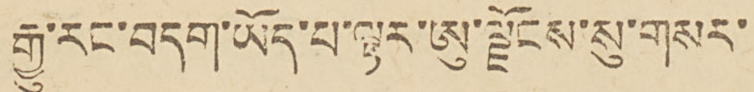རྒྱུ་རང་བདག་ཡོད་པ་ལྟར་ཨུ་ལྗོངས་གསར་
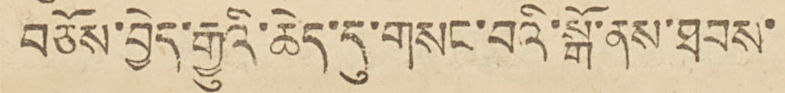ནྕོས་བྱེད་རྒྱུའི་ཆེད་དུ་གསང་བའི་སྒོ་ནས་ཐབས་
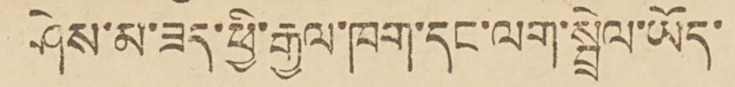ཤེས་མ་ཟད་ཕྱི་རྒྱལ་ཁག་དང་ལག་སྤྲེལ་ཡོད་
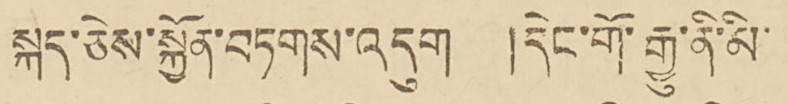སྐད་ཅེས་སྐྱོན་བཏགས་འདུག།།དེང་གོ་རྒྱུ་ནི་མི་
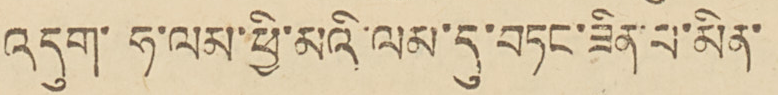འདུག་ཧ་ཨ་ལམ་ཕྱི་མིའི་ལམ་དུ་བཏང་ཟིན་པ་མིན་
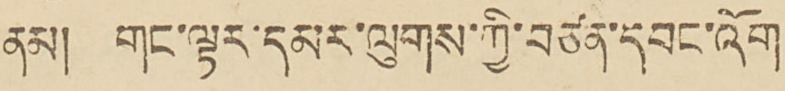ནམ། གང་ལྟར་དམར་ལུགས་ཀྱི་བཙན་དབང་འོག
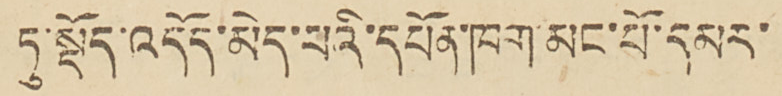ཏུ་སྡོད་འདོད་མེད་པའི་དཔོན་ཁག་མང་པོ་དམར་
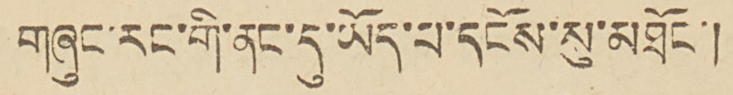གཞུང་རང་གི་ནང་དུ་ཡོད་པ་དངོས་སུ་མཐོང་།
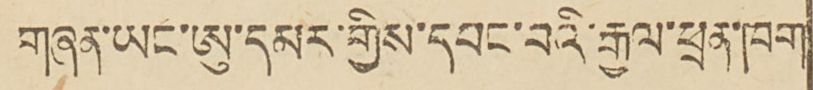གཞན་ཡང་ཨུ་དམར་གྱིས་དབང་བའི་རྒྱལ་ཕྲན་ཁག
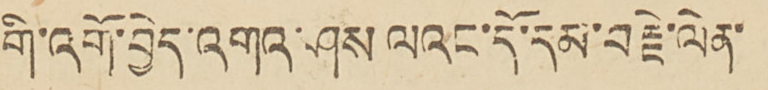གི་འགོ་བྱེད་འགའ་ཤས ལའང་དོ་དོམ་བརྗེ་ལེན་
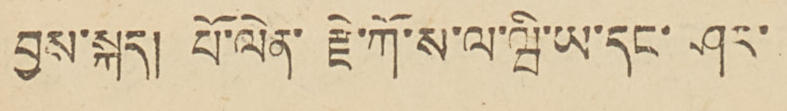བྱས་སྐད། པོ་ལེན་རྗེ་ཀོ་ས་ལ་ཝི་ཡ་དང་ཤར་
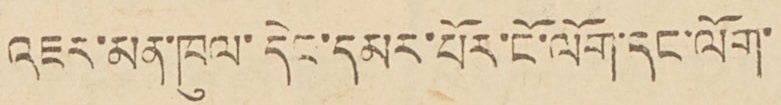འཇར་མན་ཁུལ་དེང་དམར་པོར་ངོ་ལོག་དང་ལོག་
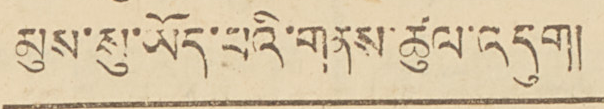མུས་སུ་ཡོད་པའི་གནས་ཚུལ་འདུག།།
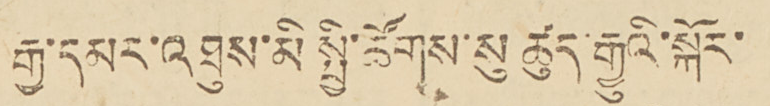རྒྱ་དམར་འཐུས་མི སྤྱི་ཚོགས་སུ ཚུད་རྒྱུའི་སྐོར་
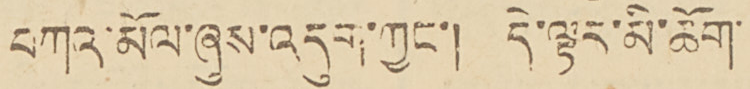བཀའ་མོལ་ཞུས་འདུག་ཀྱང་། དེ་ལྟར་མི་ཆོག་
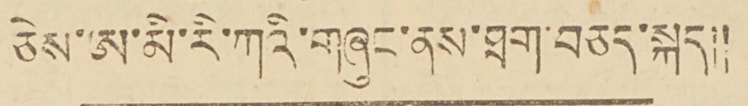ཅེས་ཨ་མི་རི་ཀའི་གཞུང་ནས་ཐག་བཅད་སྐད།།
